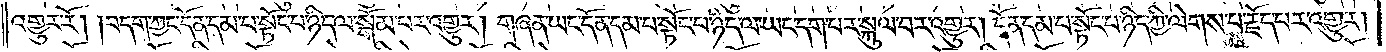འགྱུར་རོ། །བདག་ཀྱང་དོན་དམ་པ་སྟོང་པ་ཉིད་ལ་སྒོམ་པར་འགྱུར། གཞན་ཡང་དོན་དམ་པ་སྟོང་པ་ཉིད་ལ་ཡང་དག་པར་སྐུལ་བར་འགྱུར། དོན་དམ་པ་སྟོང་པ་ཉིད་ཀྱི་ལེགས་པ་རྗོད་པར་འགྱུར།
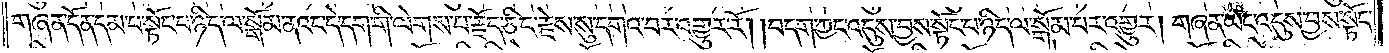གཞན་དོན་དམ་པ་སྟོང་པ་ཉིད་ལ་སྒོམ་ནའང་དེ་དག་གི་ལེགས་པ་རྗོད་ཅིང་རྗེས་སུ་དགའ་བར་འགྱུར་རོ། །བདག་ཀྱང་འདུས་བྱས་སྟོང་པ་ཉིད་ལ་སྒོམ་པར་འགྱུར། གཞན་ཡང་འདུས་བྱས་སྟོང་
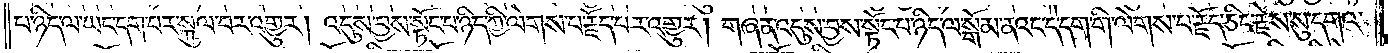པ་ཉིད་ལ་ཡང་དག་པར་སྐུལ་བར་འགྱུར། འདུས་བྱས་སྟོང་པ་ཉིད་ཀྱི་ལེགས་པ་རྗོད་པར་འགྱུར། གཞན་འདུས་བྱས་སྟོང་པ་ཉིད་ལ་སྒོམ་ནའང་དེ་དག་གི་ལེགས་པ་རྗོད་ཅིང་རྗེས་སུ་དགའ་
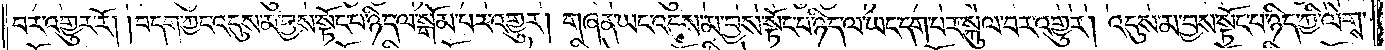བར་འགྱུར་རོ། །བདག་ཀྱང་འདུས་མ་བྱས་སྟོང་པ་ཉིད་ལ་སྒོམ་པར་འགྱུར། གཞན་ཡང་འདུས་མ་བྱས་སྟོང་པ་ཉིད་ལ་ཡང་དག་པར་སྐུལ་བར་འགྱུར། འདུས་མ་བྱས་སྟོང་པ་ཉིད་ཀྱི་ལེགས་
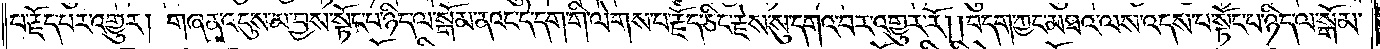པ་རྗོད་པར་འགྱུར། གཞན་འདུས་མ་བྱས་སྟོང་པ་ཉིད་ལ་སྒོམ་ནའང་དེ་དག་གི་ལེགས་པ་རྗོད་ཅིང་རྗེས་སུ་དགའ་བར་འགྱུར་རོ། །བདག་ཀྱང་མཐའ་ལས་འདས་པ་སྟོང་པ་ཉིད་ལ་སྒོམ་
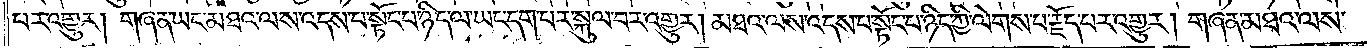པར་འགྱུར། གཞན་ཡང་མཐའ་ལས་འདས་པ་སྟོང་པ་ཉིད་ལ་ཡང་དག་པར་སྐུལ་བར་འགྱུར། མཐའ་ལས་འདས་པ་སྟོང་པ་ཉིད་ཀྱི་ལེགས་པ་རྗོད་པར་འགྱུར། གཞན་མཐའ་ལས་
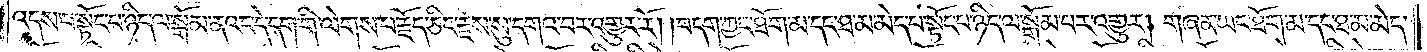འདས་པ་སྟོང་པ་ཉིད་ལ་སྒོམ་ནའང་དེ་དག་གི་ལེགས་པ་རྗོད་ཅིང་རྗེས་སུ་དགའ་བར་འགྱུར་རོ། །བདག་ཀྱང་ཐོག་མ་དང་ཐ་མ་མེད་པ་སྟོང་པ་ཉིད་ལ་སྒོམ་པར་འགྱུར། གཞན་ཡང་ཐོག་མ་དང་ཐ་མ་མེད་
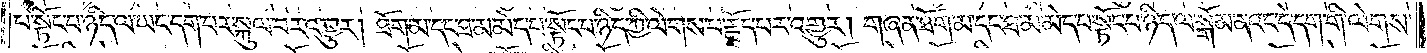པ་སྟོང་པ་ཉིད་ལ་ཡང་དག་པར་སྐུལ་བར་འགྱུར། ཐོག་མ་དང་ཐ་མ་མེད་པ་སྟོང་པ་ཉིད་ཀྱི་ལེགས་པ་རྗོད་པར་འགྱུར། གཞན་ཐོག་མ་དང་ཐ་མ་མེད་པ་སྟོང་པ་ཉིད་ལ་སྒོམ་ནའང་དེ་དག་གི་ལེགས་
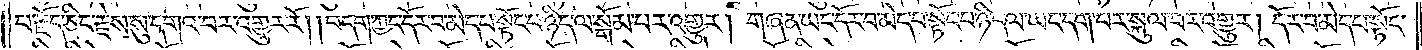པ་རྗོད་ཅིང་རྗེས་སུ་དགའ་བར་འགྱུར་རོ། །བདག་ཀྱང་དོར་བ་མེད་པ་སྟོང་པ་ཉིད་ལ་སྒོམ་པར་འགྱུར། གཞན་ཡང་དོར་བ་མེད་པ་སྟོང་པ་ཉིད་ལ་ཡང་དག་པར་སྐུལ་བར་འགྱུར། དོར་བ་མེད་པ་སྟོང་
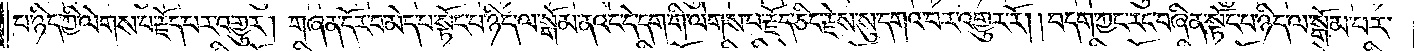པ་ཉིད་ཀྱི་ལེགས་པ་རྗོད་པར་འགྱུར། གཞན་དོར་བ་མེད་པ་སྟོང་པ་ཉིད་ལ་སྒོམ་ནའང་དེ་དག་གི་ལེགས་པ་རྗོད་ཅིང་རྗེས་སུ་དགའ་བར་འགྱུར་རོ༎ བདག་ཀྱང་རང་བཞིན་སྟོང་པ་ཉིད་ལ་སྒོམ་པར་
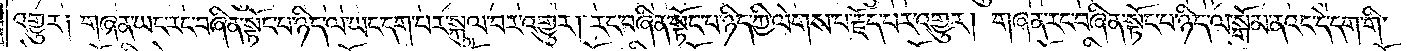འགྱུར། གཞན་ཡང་རང་བཞིན་སྟོང་པ་ཉིད་ལ་ཡང་དག་པར་སྐུལ་བར་འགྱུར། རང་བཞིན་སྟོང་པ་ཉིད་ཀྱི་ལེགས་པ་རྗོད་པར་འགྱུར། གཞན་རང་བཞིན་སྟོང་པ་ཉིད་ལ་སྒོམ་ནའང་དེ་དག་གི་
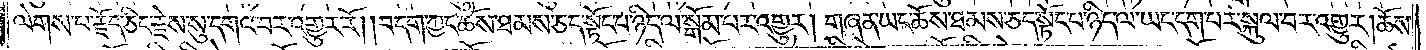ལེགས་པ་རྗོད་ཅིང་རྗེས་སུ་དགའ་བར་འགྱུར་རོ། །བདག་ཀྱང་ཆོས་ཐམས་ཅད་སྟོང་པ་ཉིད་ལ་སྒོམ་པར་འགྱུར། གཞན་ཡང་ཆོས་ཐམས་ཅད་སྟོང་པ་ཉིད་ལ་ཡང་དག་པར་སྐུལ་བར་འགྱུར། ཆོས་
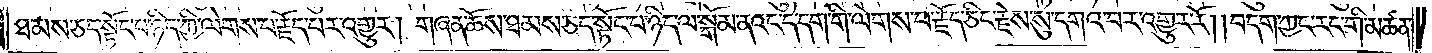ཐམས་ཅད་སྟོང་པ་ཉིད་ཀྱི་ལེགས་པ་རྗོད་པར་འགྱུར། གཞན་ཆོས་ཐམས་ཅད་སྟོང་པ་ཉིད་ལ་སྒོམ་ནའང་དེ་དག་གི་ལེགས་པ་རྗོད་ཅིང་རྗེས་སུ་དགའ་བར་འགྱུར་རོ། །བདག་ཀྱང་རང་གི་མཚན་
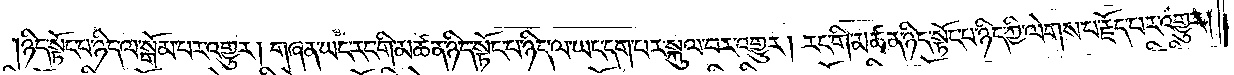ཉིད་སྟོང་པ་ཉིད་ལ་སྒོམ་པར་འགྱུར། གཞན་ཡང་རང་གི་མཚན་ཉིད་སྟོང་པ་ཉིད་ལ་ཡང་དག་པར་སྐུལ་བར་འགྱུར། རང་གི་མཚན་ཉིད་སྟོང་པ་ཉིད་ཀྱི་ལེགས་པ་རྗོད་པར་འགྱུར།
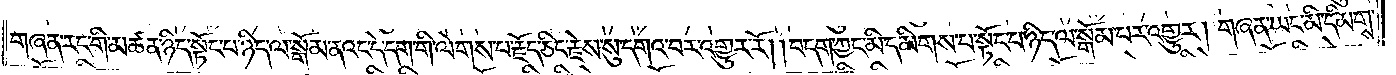གཞན་རང་གི་མཚན་ཉིད་སྟོང་པ་ཉིད་ལ་སྒོམ་ནའང་དེ་དག་གི་ལེགས་པ་རྗོད་ཅིང་རྗེས་སུ་དགའ་བར་འགྱུར་རོ། །བདག་ཀྱང་མི་དམིགས་པ་སྟོང་པ་ཉིད་ལ་སྒོམ་པར་འགྱུར། གཞན་ཡང་མི་དམིགས་
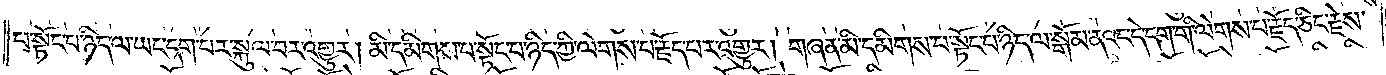པ་སྟོང་པ་ཉིད་ལ་ཡང་དག་པར་སྐུལ་བར་འགྱུར། མི་དམིགས་པ་སྟོང་པ་ཉིད་ཀྱི་ལེགས་པ་རྗོད་པར་འགྱུར། གཞན་མི་དམིགས་པ་སྟོང་པ་ཉིད་ལ་སྒོམ་ནའང་དེ་དག་གི་ལེགས་པ་རྗོད་ཅིང་རྗེས་
